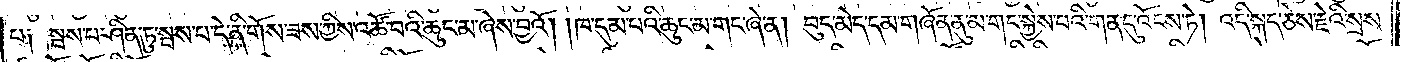པ༑ སྦས་པ་ཤིན་ཏུ་སྦས་པ་དེ་ནི་གོས་ཟས་ཀྱིས་འཚོ་བའི་ཆུང་མ་ཞེས་བྱའོ། །ཁ་དུམ་པའི་ཆུང་མ་གང་ཞེ་ན། བུད་མེད་དམ་གཞོན་ནུ་མ་གང་སྐྱེས་པའི་གན་དུ་འོངས་ཏེ། འདི་སྐད་ཅེས་རྗེའི་སྲས་
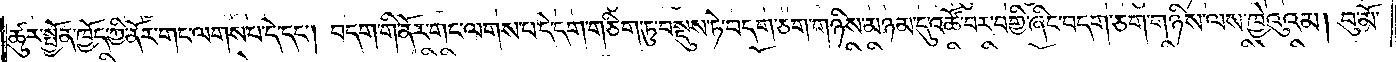ཚུར་སྤྱོན་ཁྱོད་ཀྱི་ནོར་གང་ལགས་པ་དེ་དང༌། བདག་གི་ནོར་གང་ལགས་པ་དེ་དག་གཅིག་ཏུ་བསྡུས་ཏེ་བདག་ཅག་གཉིས་མཉམ་དུ་འཚོ་བར་བགྱི་ཞིང་བདག་ཅག་གཉིས་ལས་ཁྱེའུའམ། བུ་མོ་
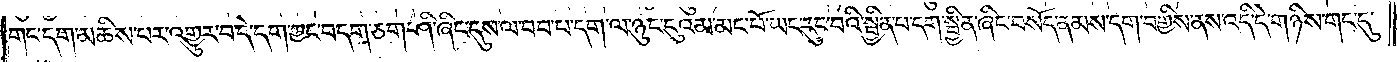གང་དག་མཆིས་པར་འགྱུར་བ་དེ་དག་ཀྱང་བདག་ཅག་ཤི་ཞིང་དུས་ལ་བབ་པ་དག་ལ་ཉུང་ངུའམ་མང་པོ་ཡང་རུང་བའི་སྦྱིན་པ་དག་སྦྱིན་ཞིང་བསོད་ནམས་དག་བགྱིས་ནས་འདི་དེ་གཉིས་གང་དུ་
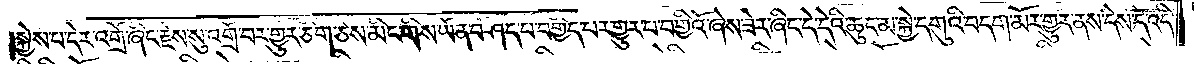།སྐྱེས་པ་དེར་འགྲོ་ཞིང་རྗེས་སུ་འགྲོ་བར་གྱུར་ཅིག་ཅེས་མིང་གིས་ཡོན་བཤད་པ་བགྱིད་པར་གྱུར་པ་བགྱིའོ་ཞེས་ཟེར་ཞིང་དེ་དེའི་ཆུང་མ་སྐྱེ་དགུའི་བདག་མོར་གྱུར་ནས་དེས་དེ་འདི་
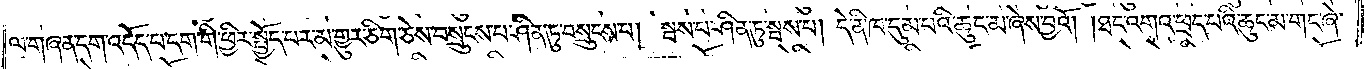ལ་གཞན་དག་འདོད་པ་དག་གི་ཕྱིར་སྤྱོད་པར་མ་གྱུར་ཅིག་ཅེས་བསྲུངས་པ་ཤིན་ཏུ་བསྲུངས་པ། སྦས་པ་ཤིན་ཏུ་སྦས་པ། དེ་ནི་ཁ་དུམ་པའི་ཆུང་མ་ཞེས་བྱའོ། །ཐང་འགའ་ཕྲད་པའི་ཆུང་མ་གང་ཞེ་
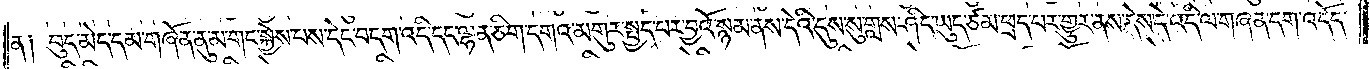ན༑ བུད་མེད་དམ་གཞོན་ནུ་མ་གང་སྐྱེས་པས་དེང་བདག་འདི་དང་ལྷན་ཅིག་དགའ་མགུར་སྤྱད་པར་བྱའོ་སྙམ་ནས་དེའི་དུས་སུ་གླས་ཤིང་ཡུད་ཙམ་ཕྲད་པར་གྱུར་ནས་དེས་དེ་འདི་ལ་གཞན་དག་འདོད་
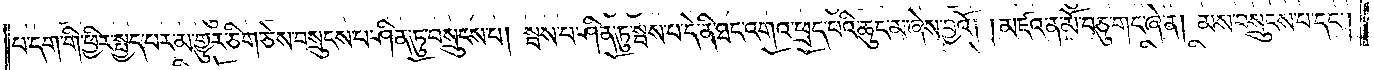པ་དག་གི་ཕྱིར་སྤྱད་པར་མ་གྱུར་ཅིག་ཅེས་བསྲུངས་པ་ཤིན་ཏུ་བསྲུངས་པ། སྦས་པ་ཤིན་ཏུ་སྦས་པ་དེ་ནི་ཐང་འགའ་ཕྲད་པའི་ཆུང་མ་ཞེས་བྱའོ། །མཛའ་ན་མོ་བཅུ་གང་ཞེ་ན། མས་བསྲུངས་པ་དང༌།
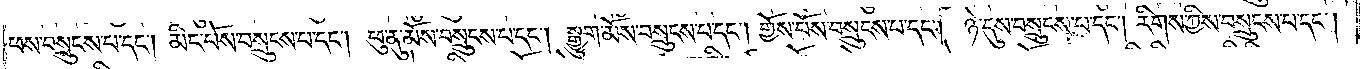ཕས་བསྲུངས་པ་དང༌། མིང་པོས་བསྲུངས་པ་དང༌། ཕུ་ནུ་མོས་བསྲུངས་པ་དང༌། སྒྱུག་མོས་བསྲུངས་པ་དང༌། གྱོས་པོས་བསྲུངས་པ་དང༌། ཉེ་དུས་བསྲུངས་པ་དང༌། རིགས་ཀྱིས་བསྲུངས་པ་དང༌།
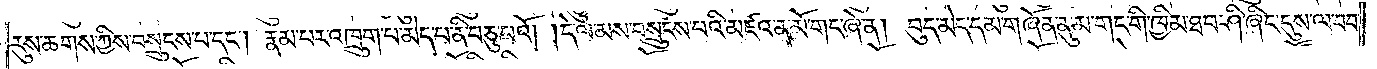རུས་ཆགས་ཀྱིས་བསྲུངས་པ་དང༌། རྣམ་པར་འཁྲུག་པ་མེད་པ་ནི་བཅུ་པའོ། །དེ་ལ་མས་བསྲུངས་པའི་མཛའ་ན་མོ་གང་ཞེ་ན། བུད་མེད་དམ་གཞོན་ནུ་མ་གང་གི་ཁྱིམ་ཐབ་ཤི་ཞིང་དུས་ལ་བབ་
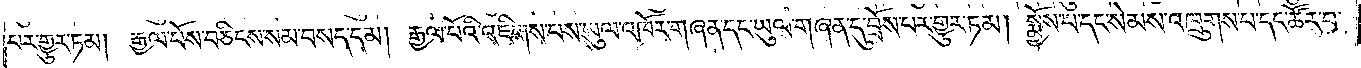པར་གྱུར་ཏམ། རྒྱལ་པོས་བཅིངས་སམ་བསད་དམ། རྒྱལ་པོའི་འཇིགས་པས་ཡུལ་འཁོར་གཞན་དང་ཡུལ་གཞན་དུ་བྲོས་པར་གྱུར་ཏམ། སྨྱོས་པ་དང་སེམས་འཁྲུགས་པ་དང་ཚོར་བ་
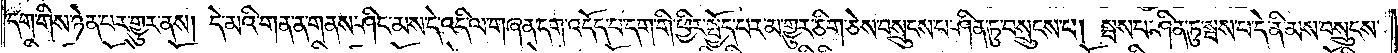དག་གིས་ཉེན་པར་གྱུར་ནས། དེ་མའི་གན་ན་གནས་ཤིང་མས་དེ་འདི་ལ་གཞན་དག་འདོད་པ་དག་གི་ཕྱིར་སྤྱོད་པར་མ་གྱུར་ཅིག་ཅེས་བསྲུངས་པ་ཤིན་ཏུ་བསྲུངས་པ། སྦས་པ་ཤིན་ཏུ་སྦས་པ་དེ་ནི་མས་བསྲུངས་
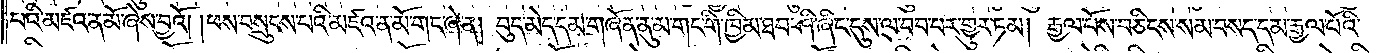པའི་མཛའ་ན་མོ་ཞེས་བྱའོ། །ཕས་བསྲུངས་པའི་མཛའ་ན་མོ་གང་ཞེ་ན། བུད་མེད་དམ་གཞོན་ནུ་མ་གང་གི་ཁྱིམ་ཐབ་ཤི་ཞིང་དུས་ལ་བབ་པར་གྱུར་ཏམ། རྒྱལ་པོས་བཅིངས་སམ་བསད་དམ་རྒྱལ་པོའི་
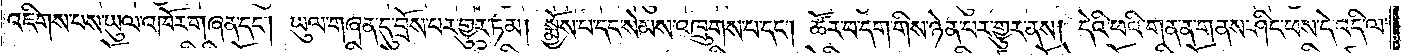འཇིགས་པས་ཡུལ་འཁོར་གཞན་དང༌། ཡུལ་གཞན་དུ་བྲོས་པར་གྱུར་ཏམ། སྨྱོས་པ་དང་སེམས་འཁྲུགས་པ་དང༌། ཚོར་བ་དག་གིས་ཉེན་པར་གྱུར་ནས། དེའི་ཕའི་གན་ན་གནས་ཤིང་ཕས་དེ་འདི་ལ་
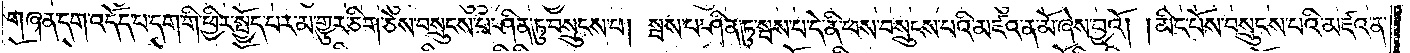གཞན་དག་འདོད་པ་དག་གི་ཕྱིར་སྤྱོད་པར་མ་གྱུར་ཅིག་ཅེས་བསྲུངས་པ་ཤིན་ཏུ་བསྲུངས་པ། སྦས་པ་ཤིན་ཏུ་སྦས་པ་དེ་ནི་ཕས་བསྲུངས་པའི་མཛའ་ན་མོ་ཞེས་བྱའོ། །མིང་པོས་བསྲུངས་པའི་མཛའ་ན་
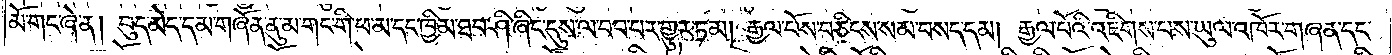མོ་གང་ཞེ་ན། བུད་མེད་དམ་གཞོན་ནུ་མ་གང་གི་ཕ་མ་དང་ཁྱིམ་ཐབ་ཤི་ཞིང་དུས་ལ་བབ་པར་གྱུར་ཏམ། རྒྱལ་པོས་བཅིངས་སམ་བསད་དམ། རྒྱལ་པོའི་འཇིགས་པས་ཡུལ་འཁོར་གཞན་དང་
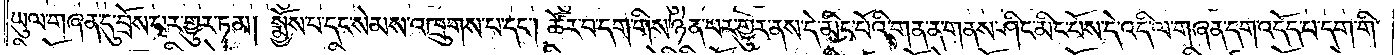ཡུལ་གཞན་དུ་བྲོས་པར་གྱུར་ཏམ། སྨྱོས་པ་དང་སེམས་འཁྲུགས་པ་དང༌། ཚོར་བ་དག་གིས་ཉེན་པར་གྱུར་ནས་དེ་མིང་པོའི་གན་ན་གནས་ཤིང་མིང་པོས་དེ་འདི་ལ་གཞན་དག་འདོད་པ་དག་གི་
